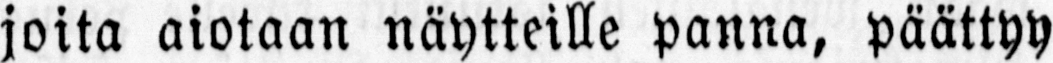joita aiotaan näytteille panna, päättyy
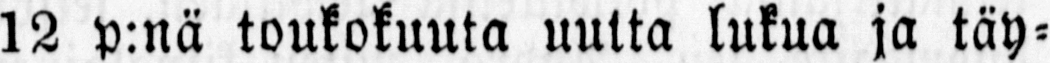12 p:nä toukokuuta uutta lukua ja täy-
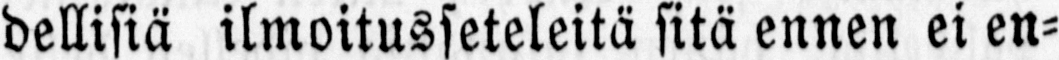dellisiä ilmoitusseteleitä sitä ennen ei en-
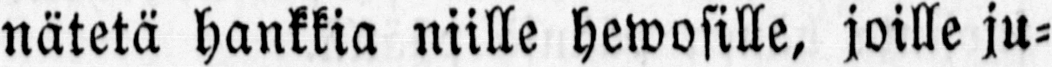nätetä hankkia niille hewosille, joille ju-
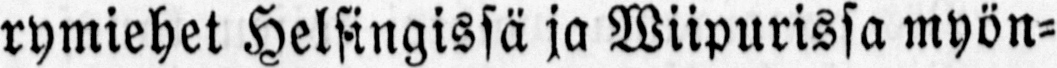rymiehet Helsingissä ja Wiipurissa myön-
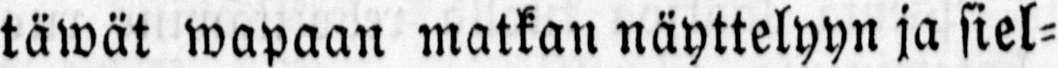täwät wapaan matkan näyttelyyn ja siel-
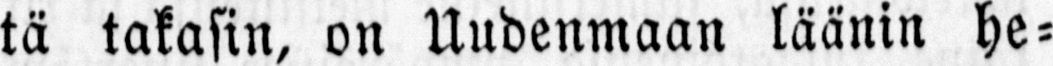tä takasin, on Uudenmaan läänin he-
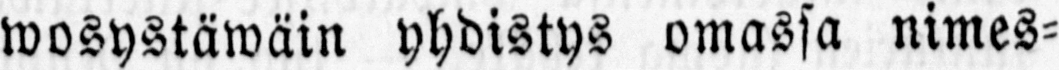wosystäwäin yhdistys omassa nimes-
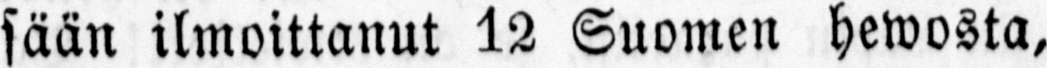sään ilmoittanut 12 Suomen hewosta,
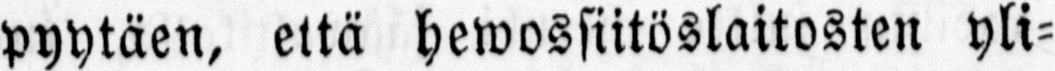pyytäen, että hewossiitöslaitosten yli-
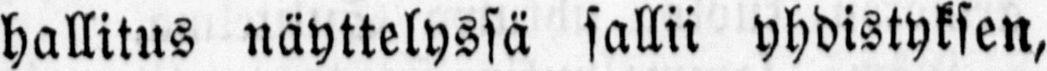hallitus näyttelyssä sallii yhdistyksen,
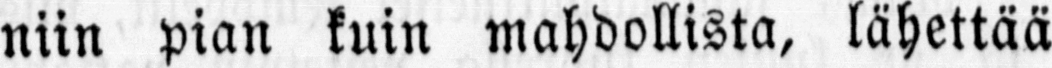niin pian kuin mahdollista, lähettää
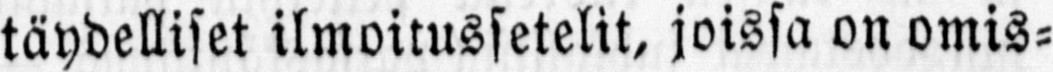täydelliset ilmoitussetelit, joissa on omis-
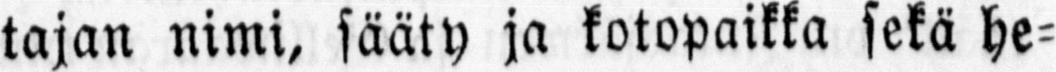tajan nimi, sääty ja kotopaikka sekä he-
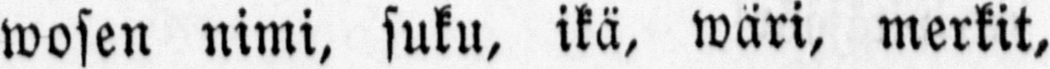wosen nimi, suku, ikä, wäri, merkit,
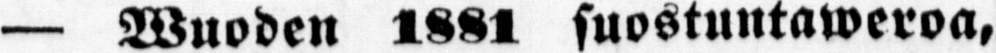— Wuoden 1881 suostuntaweroa,
